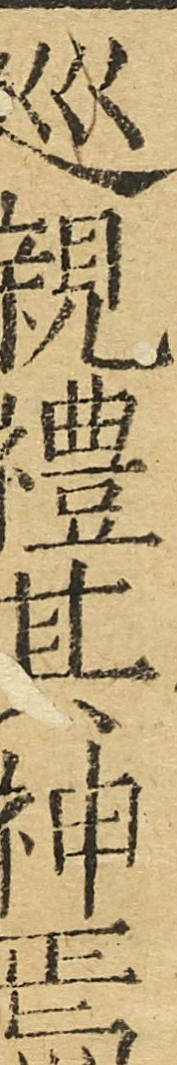巡親禮其神焉
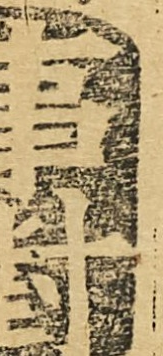事對
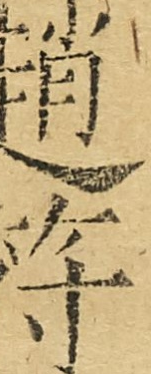趙符
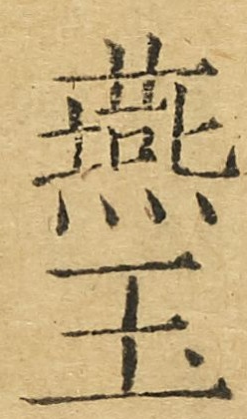燕玉
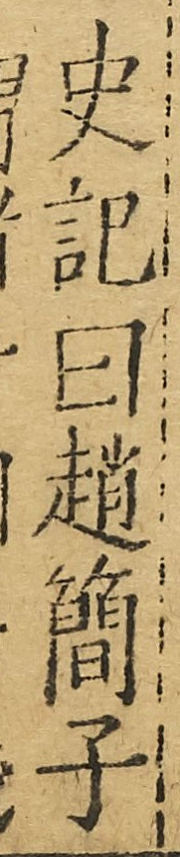史記曰趙簡子
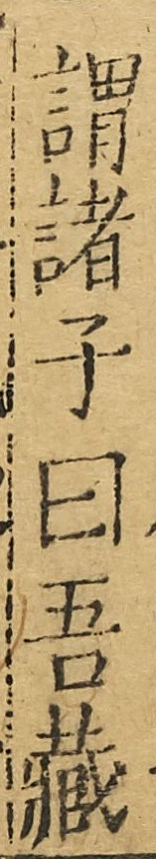謂諸子曰吾藏
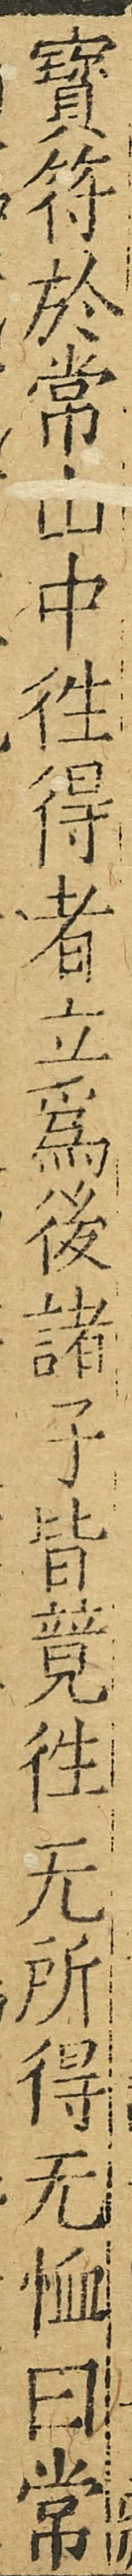寶符於常山中往得者立為後諸子皆競往無所得無恤曰常
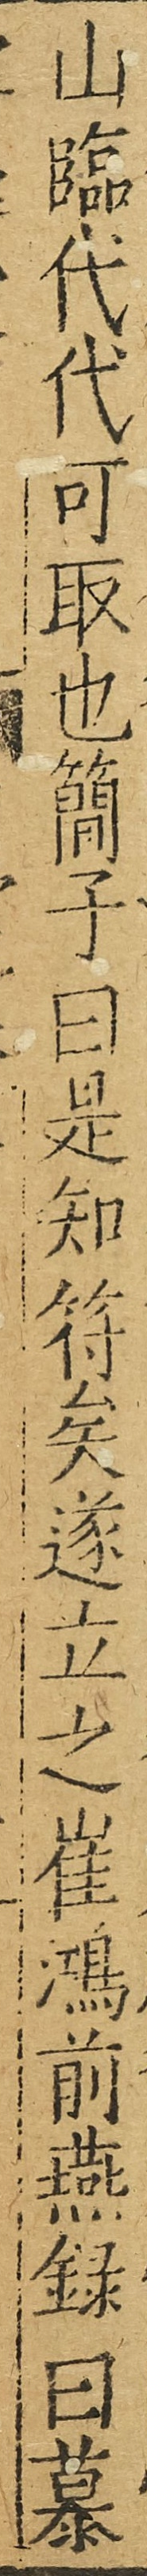山臨代代可取也簡子曰是知符矣遂立之崔鴻前燕錄曰慕
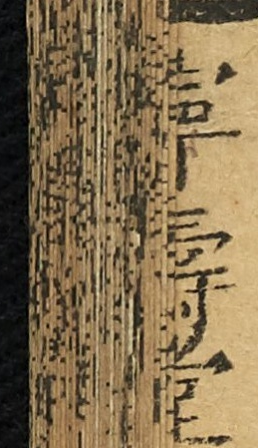寧壽堂
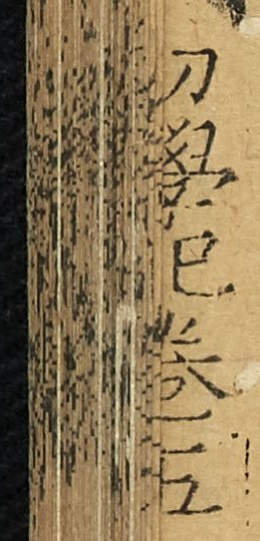初學記卷五
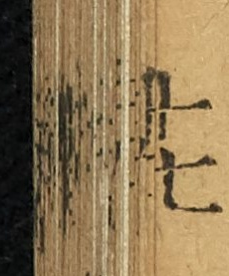十七
